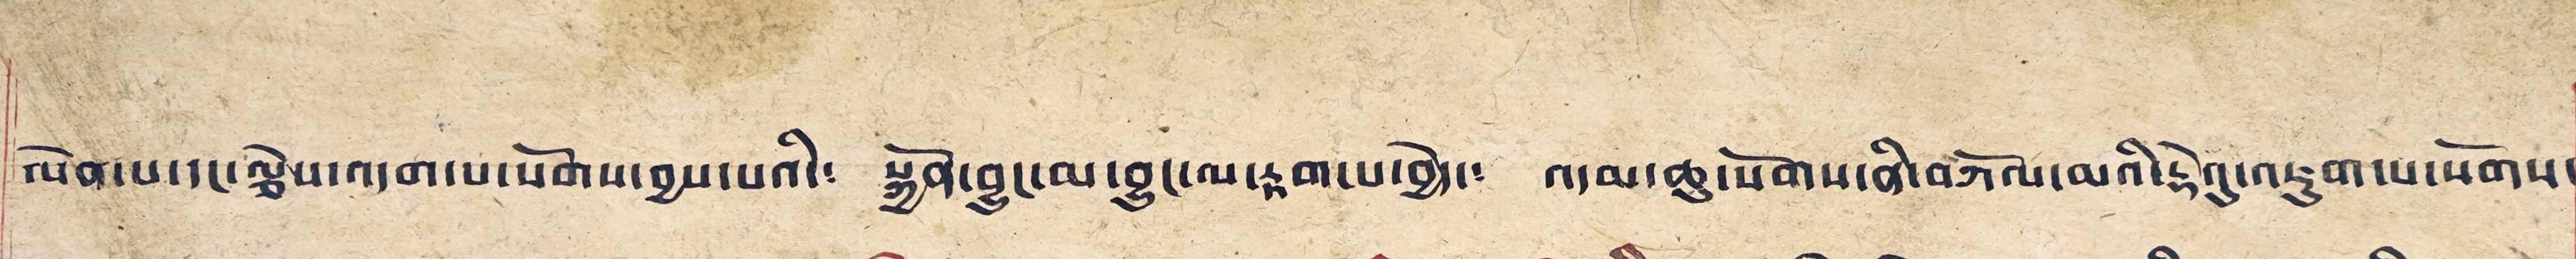ལེན་པ་དང་ལྕེས་འདག་པ་སོགས་བྱས་པའི་༴ སྐྱོན་བྱུང་མ་བྱང་ལ་རྟག་པ་བྱེད་༴ འདམ་ཆུ་སོགས་ནི་བཀོལ་མའི་རྡེའུ་འཇུག་ས་སོགས་
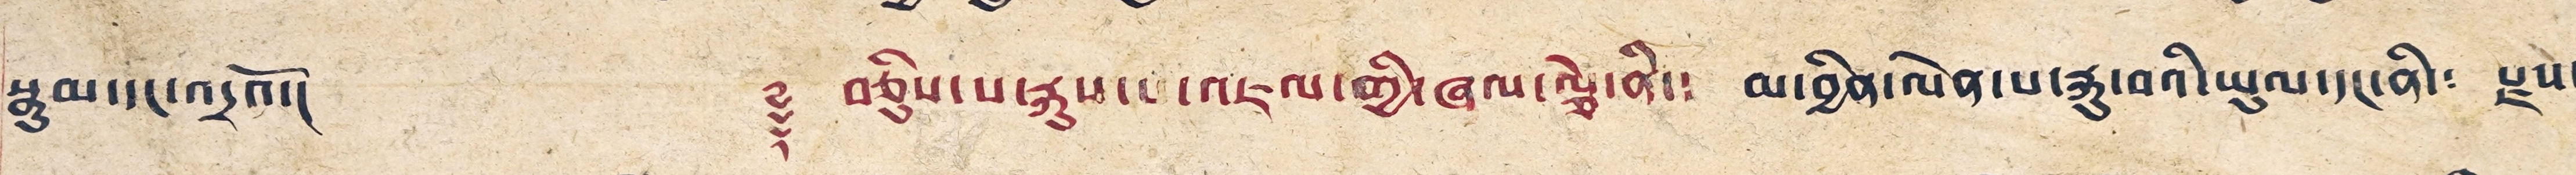སྣུམ་དང་འདྲའོ།། ༈ བཅིུས་པ་རྐུས་པ་འཇལ་གྱི་ཞལ་ལྕེ་ནི་༴ མ་བྱིན་ལེན་པ་རྐུ་བའི་ཡུལ་དང་ནི་༴ རྗས་
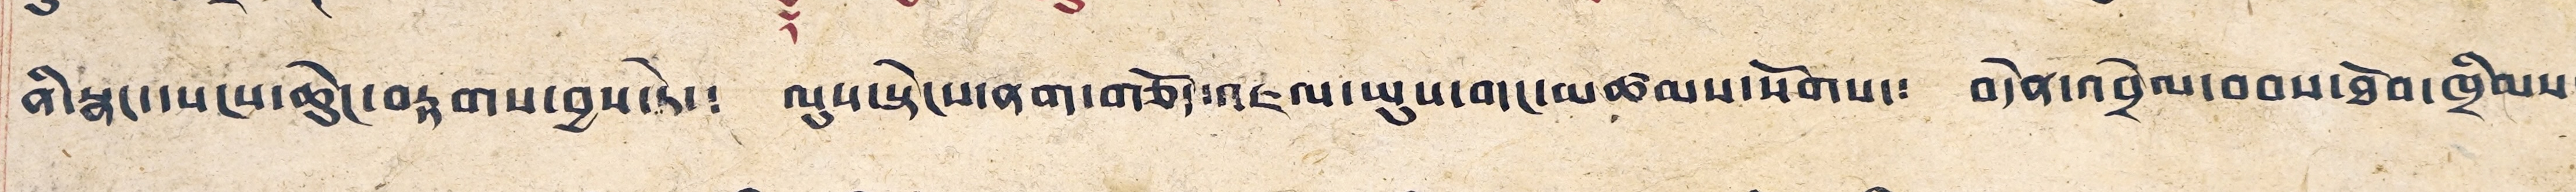ནི་སྣང་དཔངས་ཆེ་ཆུང་བརྟགས་བྱས་ཏེ་༴ ལུས་སྟེངས་ནག་གཅོད་འཇལ་ཡུས་གང་མཚམས་སོགས་༴ བདེན་འབྲེལ་བབས་ཐོབ་ཁྲིམས་
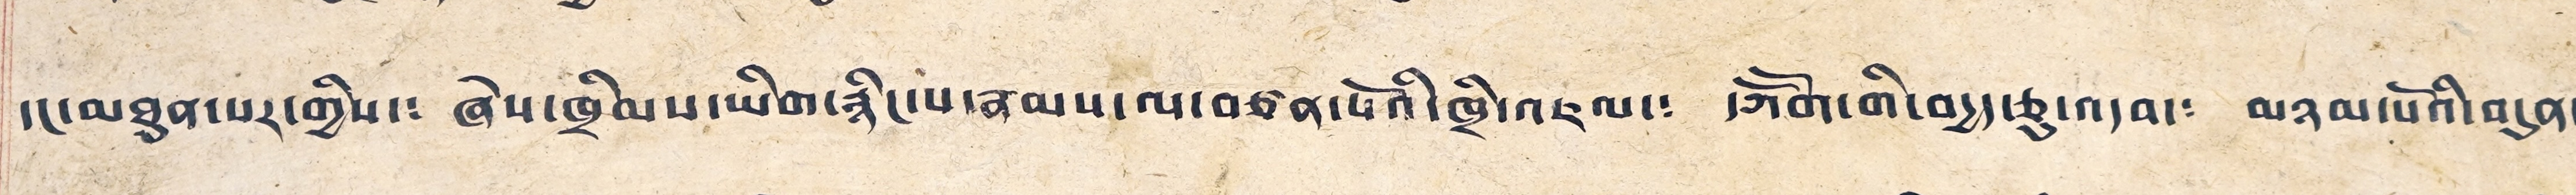དང་མཐུན་པར་གྱིས་༴ ཞེས་ཁྲིམས་ཡིག་རྙིང་པ་རྣམས་ལ་བཙན་པོའི་ཁྲི་འཇལ་༴ དཀོན་མཆོག་གི་བདྱད་ཅུ་འདབ་༴ མཉམ་པོའི་བདུན་
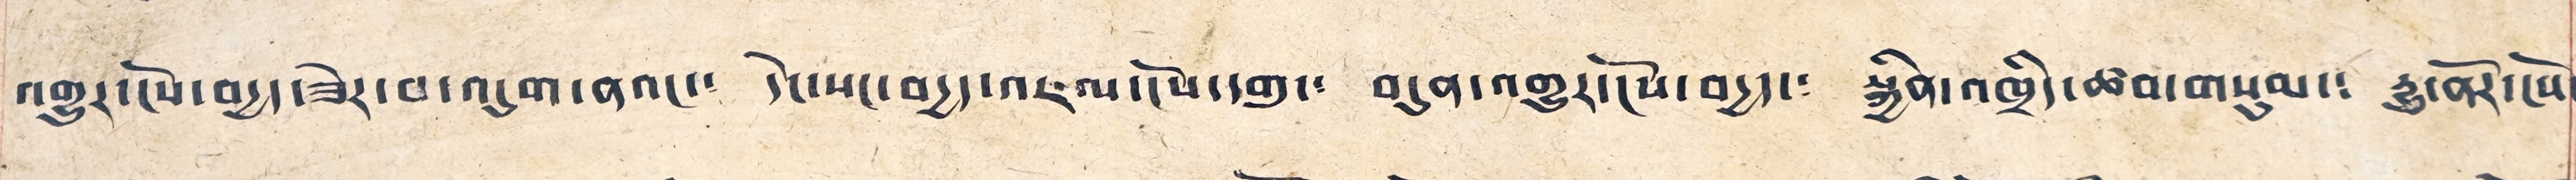འགྱུར་ངོས་བདྱད་ཟེར་བ་འདུག་ནའང་༴ དེང་སང་བདྱད་འཇལ་ངོས་དགུ་༴ བདུན་འགྱུར་ངོས་བདྱད་༴ སྐྱིན་འཁྲིད་ཚབ་གསུམ་༴ རྒྱུ་ནོར་ངོས་
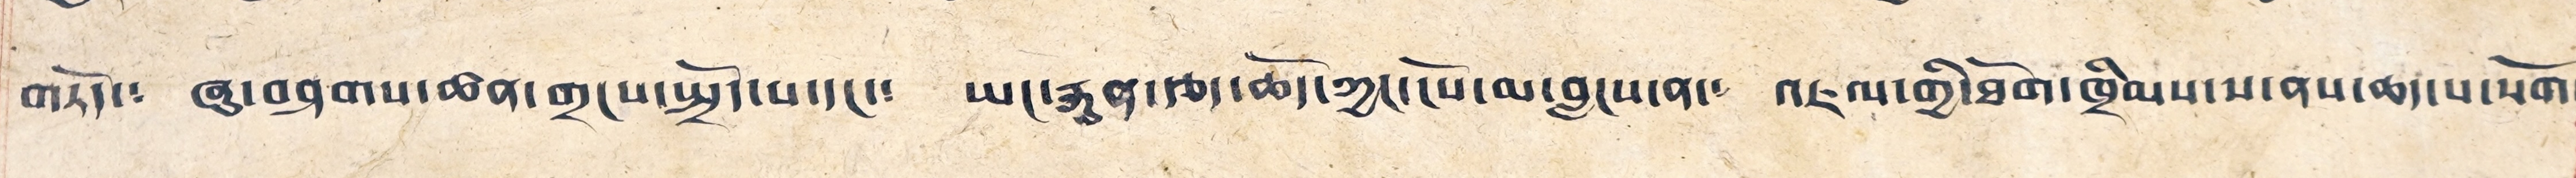གཏོད་༴ ཞུ་བཤགས་ཚན་གྲངས་སྤྲོད་པ་དང་༴ ཡང་རྐུན་རྩད་ཆོད་ཀྱང་ངོས་མ་བླངས་ན་༴ འཇལ་གྱི་ཐོག་ཁྲིམས་ས་ནས་ཆད་པ་སོགས༴
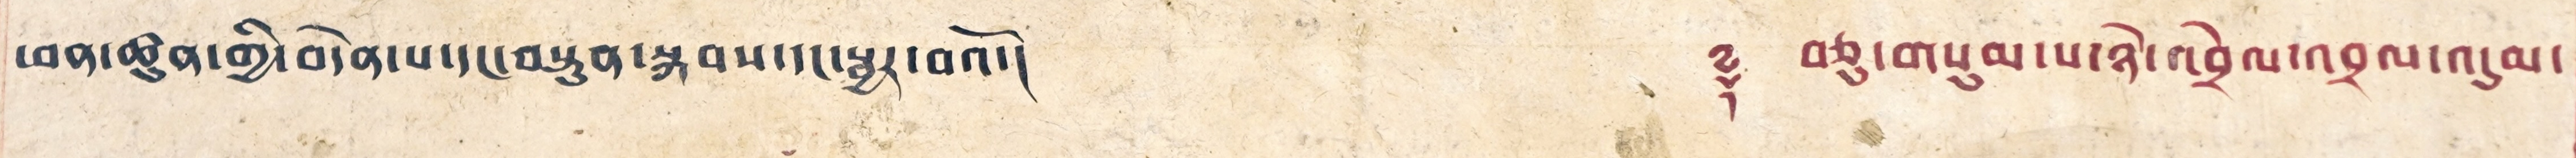ཕན་ཚུན་གྱི་བདེན་པ་དང་བསྟུན་སྐབས་དང་སྦྱར་བའོ།། ༈ བཅུ་གསུམ་པ་ཉེ་འབྲེལ་འབྲལ་འདུམ་
